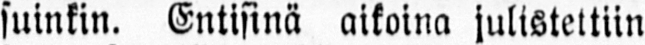suinkin. Entisinä aikoina julistettiin
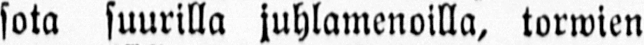sota suurilla juhlamenoilla, torwien
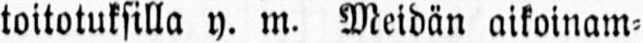toitotuksilla y. m. Meidän aikoinam-
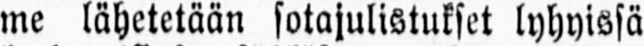me lähetetään sotajulistukset lyhyissä
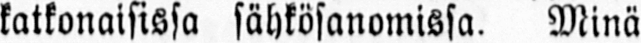katkonaisissa sähkösanomissa. Minä
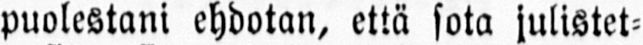puolestani ehdotan, että sota julistet-
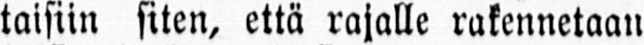taisiin siten, että rajalle rakennetaan
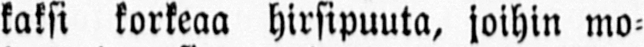kaksi korkeaa hirsipuuta, joihin mo-
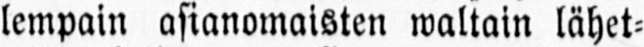lempain asianomaisten waltain lähet-
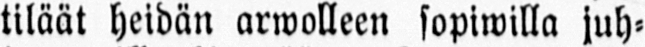tiläät heidän arwolleen sopiwilla juh-
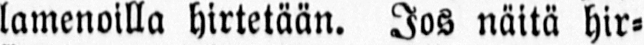lamenoilla hirtetään. Jos näitä hir-
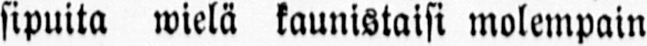sipuita wielä kaunistaisi molempain
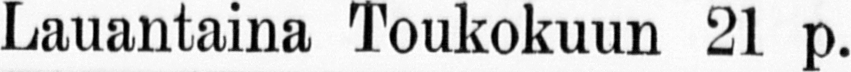Lauantaina Toukokuun 21 p.
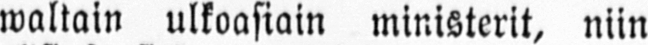waltain ulkoasiain ministerit, niin
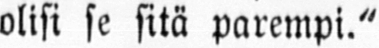olisi se sitä parempi."
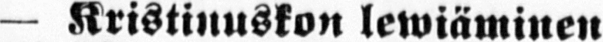— Kristinuskon lewiäminen
